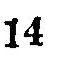14
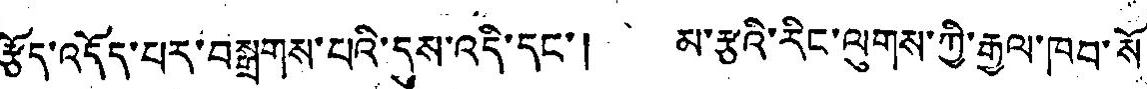རྩོད་འདོད་པར་བསྒྲགས་པའི་དུས་འདི་དང་། མ་རྩའི་རིང་ལུགས་ཀྱི་རྒྱལ་ཁབ་སོ་
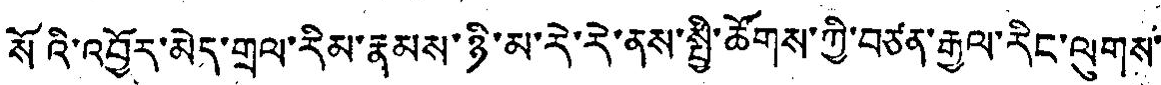སོའི་འབྱོར་མེད་གྲལ་རིམ་རྣམས་ཉི་མ་རེ་རེ་ནས་སྤྱི་ཚོགས་ཀྱི་བཙན་རྒྱལ་རིང་ལུགས་
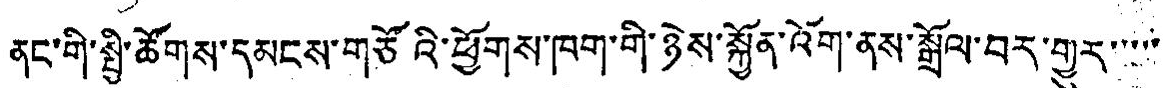ནང་གི་སྤྱི་ཚོགས་དམངས་གཙོའི་ཕྱོགས་ཧག་གི་ཉེས་སྐྱོན་འོག་ནས་སྒྲོལ་བར་གྱུར་་་་་
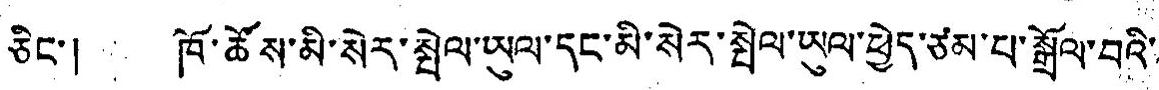ཅིང་། ཁོ་ཚོས་མི་སེར་སྤེལ་ཡུལ་དང་མི་སེར་སྤེལ་ཡུལ་ཕྱེད་ཙམ་པ་སྒྲོལ་བའི་
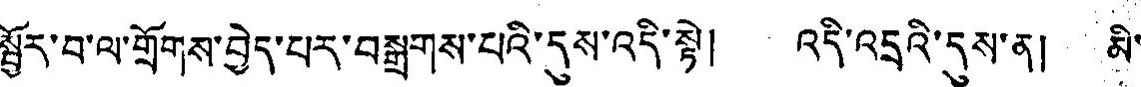སྦྱོར་བ་ལ་གྲོགས་བྱེད་པར་བསྒྲགས་པའི་དུས་འདི་སྟེ། འདི་འདྲའི་དུས་ན། མི་
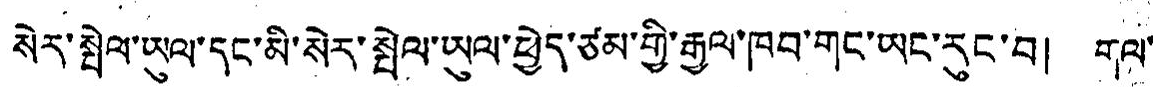སེར་སྤེལ་ཡུལ་དང་མི་སེར་སྤེལ་ཡུལ་ཕྱེད་ཙམ་གྱི་རྒྱལ་ཁབ་གང་ཡང་རུང་བ། གལ་
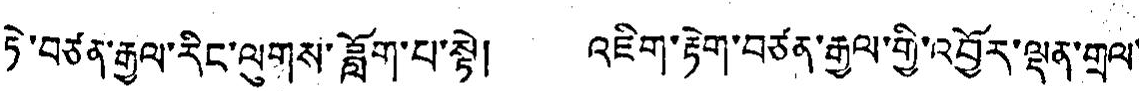ཏེ་བཙན་རྒྱལ་རིང་ལུགས་ཟློག་པ་སྟེ། འཇིག་རྟེག་བཙན་རྒྱལ་གྱི་འབྱོར་ལྡན་གྲལ་
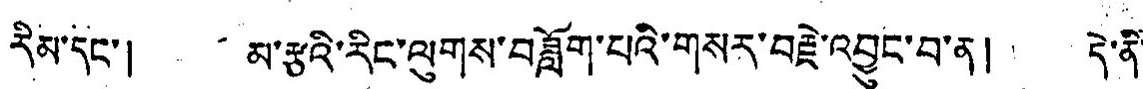རིམ་དང་། མ་རྩའི་རིང་ལུགས་བཟློག་པའི་གསར་བརྗེ་འབྱུང་བ་ན། དེ་ནི་
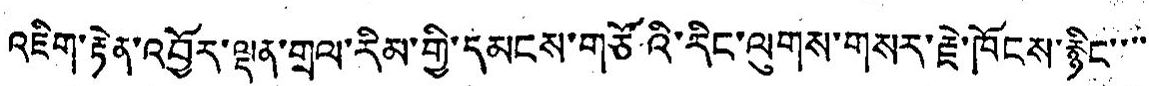འཇིག་རྟེན་འབྱོར་ལྡན་གྲ་རིམ་གྱི་དམངས་གཙོའི་རིང་ལུགས་གསར་རྗེ་ཁོངས་རྙིང་་་་
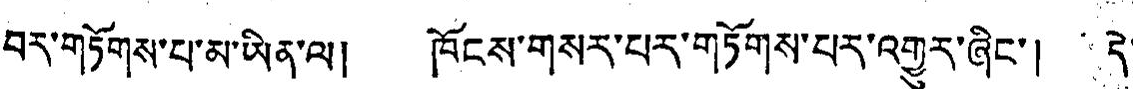བར་གཏོགས་པ་མ་ཡིན་ལ། ཁོངས་གསར་པར་གཏོགས་པར་འགྱུར་ཞིང་། དེ་
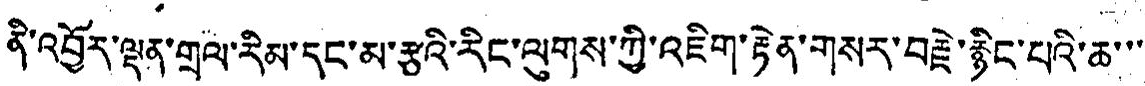ནི་འབྱོར་ལྡན་གྲལ་རིམ་དང་མ་རྩའི་རིང་ལུགས་ཀྱི་འཇིག་རྟེན་གསར་བརྗེ་རྙིང་པའི་ཆ་་་
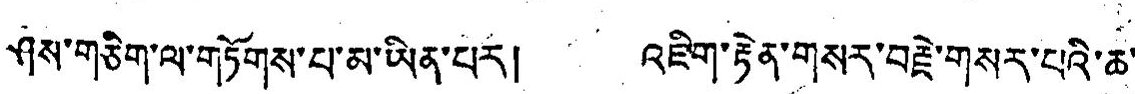ཤས་གཅིག་ལ་གཏོགས་པ་མ་ཡིན་པར། འཇིག་རྟེན་གསར་བརྗེ་གསར་པའི་ཆ་
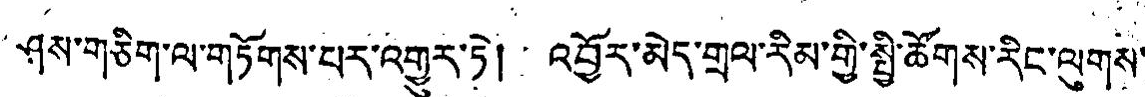ཤས་གཅིག་ལ་གཏོགས་པར་འགྱུར་ཏེ། འབྱོར་མེད་གྲལ་རིམ་གྱི་སྤྱི་ཚོགས་རིང་ལུགས་
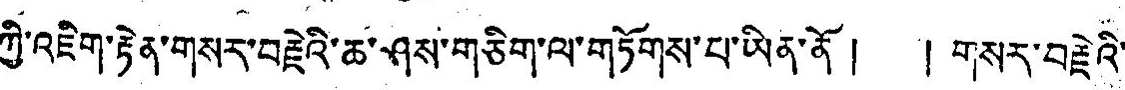ཀྱི་འཇིག་རྟེན་གསར་བརྗེའི་ཆ་ཤས་གཅིག་ལ་གཏོགས་པ་ཡིན་ནོ། གསར་བརྗེའི་
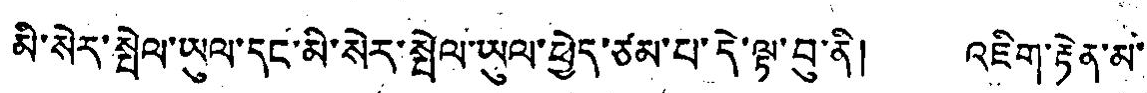མི་སེར་སྤེལ་ཡུལ་དང་མི་སེར་སྤེལ་ཡུལ་ཕྱེད་ཙམ་པ་དེ་ལྟ་བུ་ནི། འཇིག་རྟེན་མ་
